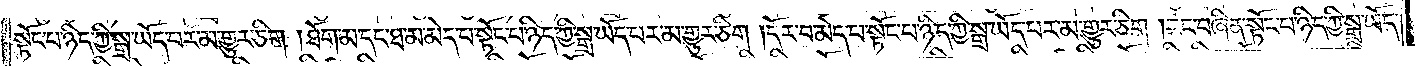སྟོང་པ་ཉིད་ཀྱི་སྒྲ་ཡོད་པར་མ་གྱུར་ཅིག །ཐོག་མ་དང་ཐ་མ་མེད་པ་སྟོང་པ་ཉིད་ཀྱི་སྒྲ་ཡོད་པར་མ་གྱུར་ཅིག །དོར་བ་མེད་པ་སྟོང་པ་ཉིད་ཀྱི་སྒྲ་ཡོད་པར་མ་གྱུར་ཅིག །རང་བཞིན་སྟོང་པ་ཉིད་ཀྱི་སྒྲ་ཡོད་
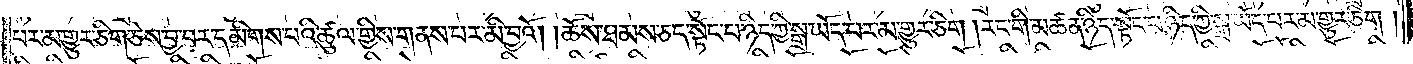པར་མ་གྱུར་ཅིག་ཅེས་བྱ་བར་དམིགས་པའི་ཚུལ་གྱིས་གནས་པར་མི་བྱའོ། །ཆོས་ཐམས་ཅད་སྟོང་པ་ཉིད་ཀྱི་སྒྲ་ཡོད་པར་མ་གྱུར་ཅིག །རང་གི་མཚན་ཉིད་སྟོང་པ་ཉིད་ཀྱི་སྒྲ་ཡོད་པར་མ་གྱུར་ཅིག །
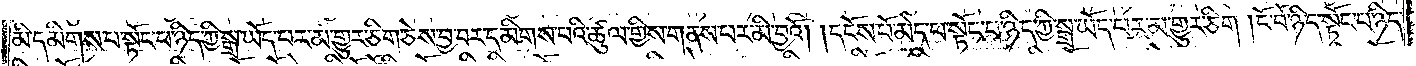མི་དམིགས་པ་སྟོང་པ་ཉིད་ཀྱི་སྒྲ་ཡོད་པར་མ་གྱུར་ཅིག་ཅེས་བྱ་བར་དམིགས་པའི་ཚུལ་གྱིས་གནས་པར་མི་བྱའོ། །དངོས་པོ་མེད་པ་སྟོང་པ་ཉིད་ཀྱི་སྒྲ་ཡོད་པར་མ་གྱུར་ཅིག །ངོ་བོ་ཉིད་སྟོང་པ་ཉིད་
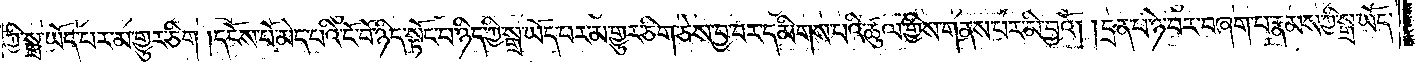ཀྱི་སྒྲ་ཡོད་པར་མ་གྱུར་ཅིག །དངོས་པོ་མེད་པའི་ངོ་བོ་ཉིད་སྟོང་པ་ཉིད་ཀྱི་སྒྲ་ཡོད་པར་མ་གྱུར་ཅིག་ཅེས་བྱ་བར་དམིགས་པའི་ཚུལ་གྱིས་གནས་པར་མི་བྱའོ། །དྲན་པ་ཉེ་བར་བཞག་པ་རྣམས་ཀྱི་སྒྲ་ཡོད་
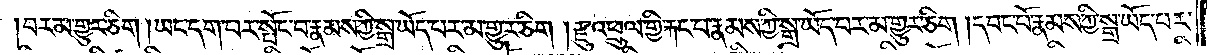བར་མ་གྱུར་ཅིག །ཡང་དག་པར་སྤོང་བ་རྣམས་ཀྱི་སྒྲ་ཡོད་པར་མ་གྱུར་ཅིག །རྫུ་འཕྲུལ་གྱི་རྐང་པ་རྣམས་ཀྱི་སྒྲ་ཡོད་པར་མ་གྱུར་ཅིག །དབང་པོ་རྣམས་ཀྱི་སྒྲ་ཡོད་པར་
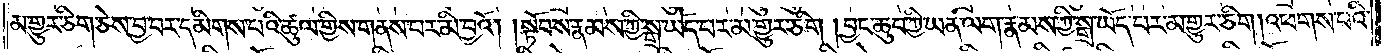མ་གྱུར་ཅིག་ཅེས་བྱ་བར་དམིགས་པའི་ཚུལ་གྱིས་གནས་པར་མི་བྱའོ། །སྟོབས་རྣམས་ཀྱི་སྒྲ་ཡོད་པར་མ་གྱུར་ཅིག །བྱང་ཆུབ་ཀྱི་ཡན་ལག་རྣམས་ཀྱི་སྒྲ་ཡོད་པར་མ་གྱུར་ཅིག །འཕགས་པའི་
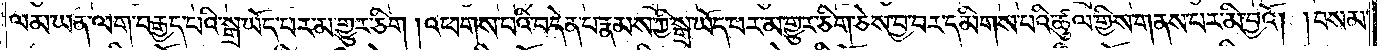ལམ་ཡན་ལག་བརྒྱད་པའི་སྒྲ་ཡོད་པར་མ་གྱུར་ཅིག །འཕགས་པའི་བདེན་པ་རྣམས་ཀྱི་སྒྲ་ཡོད་པར་མ་གྱུར་ཅིག་ཅེས་བྱ་བར་དམིགས་པའི་ཚུལ་གྱིས་གནས་པར་མི་བྱའོ། །བསམ་
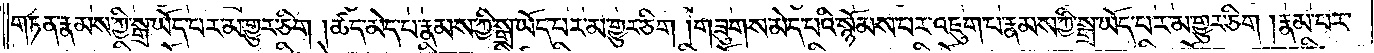གཏན་རྣམས་ཀྱི་སྒྲ་ཡོད་པར་མ་གྱུར་ཅིག །ཚད་མེད་པ་རྣམས་ཀྱི་སྒྲ་ཡོད་པར་མ་གྱུར་ཅིག །གཟུགས་མེད་པའི་སྙོམས་པར་འཇུག་པ་རྣམས་ཀྱི་སྒྲ་ཡོད་པར་མ་གྱུར་ཅིག །རྣམ་པར་
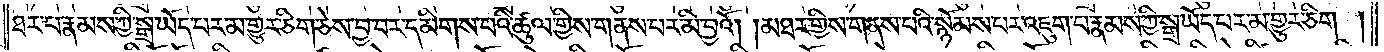ཐར་པ་རྣམས་ཀྱི་སྒྲ་ཡོད་པར་མ་གྱུར་ཅིག་ཅེས་བྱ་བར་དམིགས་པའི་ཚུལ་གྱིས་གནས་པར་མི་བྱའོ། །མཐར་གྱིས་གནས་པའི་སྙོམས་པར་འཇུག་པ་རྣམས་ཀྱི་སྒྲ་ཡོད་པར་མ་གྱུར་ཅིག །
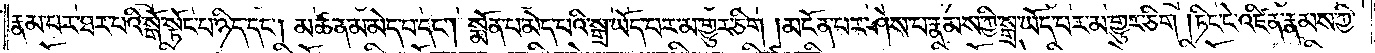རྣམ་པར་ཐར་པའི་སྒོ་སྟོང་པ་ཉིད་དང༌། མཚན་མ་མེད་པ་དང༌། སྨོན་པ་མེད་པའི་སྒྲ་ཡོད་པར་མ་གྱུར་ཅིག །མངོན་པར་ཤེས་པ་རྣམས་ཀྱི་སྒྲ་ཡོད་པར་མ་གྱུར་ཅིག །ཏིང་ངེ་འཛིན་རྣམས་ཀྱི་
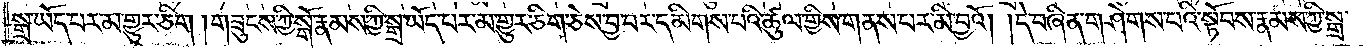སྒྲ་ཡོད་པར་མ་གྱུར་ཅིག །གཟུངས་ཀྱི་སྒོ་རྣམས་ཀྱི་སྒྲ་ཡོད་པར་མ་གྱུར་ཅིག་ཅེས་བྱ་བར་དམིགས་པའི་ཚུལ་གྱིས་གནས་པར་མི་བྱའོ། །དེ་བཞིན་གཤེགས་པའི་སྟོབས་རྣམས་ཀྱི་སྒྲ་
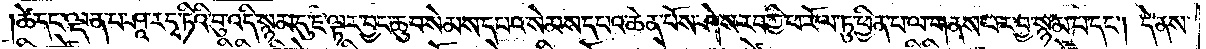ཚེ་དང་ལྡན་པ་ཤཱ་ར་དྭ་ཏིའི་བུ་འདི་སྙམ་དུ་ཇི་ལྟར་བྱང་ཆུབ་སེམས་དཔའ་སེམས་དཔའ་ཆེན་པོས་ཤེས་རབ་ཀྱི་ཕ་རོལ་ཏུ་ཕྱིན་པ་ལ་གནས་པར་བྱ་སྙམ་པ་དང༌། དེ་ནས་
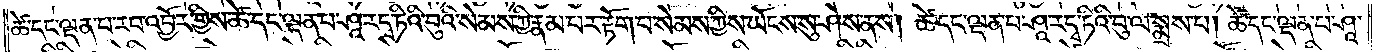ཚེ་དང་ལྡན་པ་རབ་འབྱོར་གྱིས་ཚེ་དང་ལྡན་པ་ཤཱ་ར་དྭ་ཏིའི་བུའི་སེམས་ཀྱི་རྣམ་པར་རྟོག་པ་སེམས་ཀྱིས་ཡོངས་སུ་ཤེས་ནས། ཚེ་དང་ལྡན་པ་ཤཱ་ར་དྭ་ཏིའི་བུ་ལ་སྨྲས་པ། ཚེ་དང་ལྡན་པ་ཤཱ་
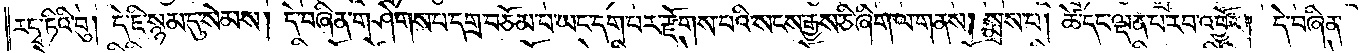ར་དྭ་ཏིའི་བུ། དེ་ཇི་སྙམ་དུ་སེམས། དེ་བཞིན་གཤེགས་པ་དགྲ་བཅོམ་པ་ཡང་དག་པར་རྫོགས་པའི་སངས་རྒྱས་ཅི་ཞིག་ལ་གནས། སྨྲས་པ། ཚེ་དང་ལྡན་པ་རབ་འབྱོར། དེ་བཞིན་
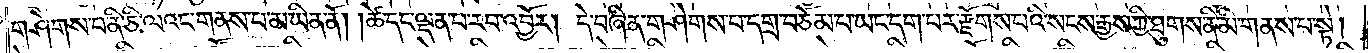གཤེགས་པ་ནི་ཅི་ལའང་གནས་པ་མ་ཡིན་ནོ། །ཚེ་དང་ལྡན་པ་རབ་འབྱོར། དེ་བཞིན་གཤེགས་པ་དགྲ་བཅོམ་པ་ཡང་དག་པར་རྫོགས་པའི་སངས་རྒྱས་ཀྱི་ཐུགས་ནི་མི་གནས་པ་སྟེ།
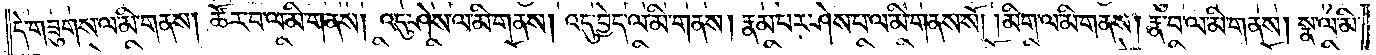དེ་གཟུགས་ལ་མི་གནས། ཚོར་བ་ལ་མི་གནས། འདུ་ཤེས་ལ་མི་གནས། འདུ་བྱེད་ལ་མི་གནས། རྣམ་པར་ཤེས་པ་ལ་མི་གནས་སོ། །མིག་ལ་མི་གནས། རྣ་བ་ལ་མི་གནས། སྣ་ལ་མི་
